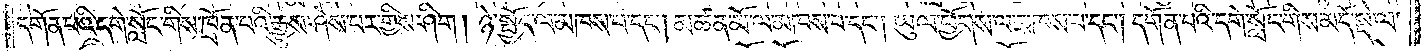དགོན་པའི་དགེ་སློང་གིས་ཁྲོན་པའི་རྒྱུས་ཤེས་པར་གྱིས་ཤིག། ཉེ་སྤྱོད་ལ་མཁས་པ་དང༌། མཚན་མོ་ལ་མཁས་པ་དང༌། ཡུལ་ཕྱོགས་ལ་མཁས་པ་དང༌། དགོན་པའི་དགེ་སློང་གིས་མདོ་སྡེ་ལ་
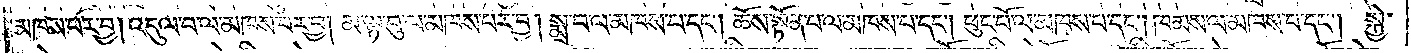མཁས་པར་བྱ། འདུལ་བ་ལ་མཁས་པར་བྱ། མ་ལྟ་བུ་ལ་མཁས་པར་བྱ། སྨྲ་བ་ལ་མཁས་པ་དང༌། ཆོས་སྟོན་པ་ལ་མཁས་པ་དང༌། ཕུང་པོ་ལ་མཁས་པ་དང༌། ཁམས་ལ་མཁས་པ་དང༌། སྐྱེ་
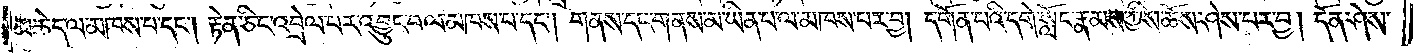མཆེད་ལ་མཁས་པ་དང༌། རྟེན་ཅིང་འབྲེལ་བར་འབྱུང་བ་ལ་མཁས་པ་དང༌། གནས་དང་གནས་མ་ཡིན་པ་ལ་མཁས་པར་བྱ། དགོན་པའི་དགེ་སློང་རྣམས་ཀྱིས་ཆོས་ཤེས་པར་བྱ། དོན་ཤེས་
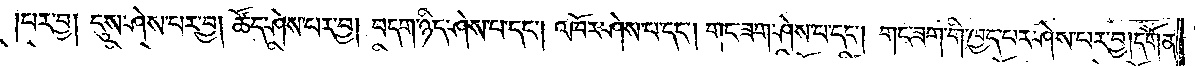པར་བྱ། དུས་ཤེས་པར་བྱ། ཚོད་ཤེས་པར་བྱ། བདག་ཉིད་ཤེས་པ་དང༌། འཁོར་ཤེས་པ་དང༌། གང་ཟག་ཤེས་པ་དང༌། གང་ཟག་གི་ཁྱད་པར་ཤེས་པར་བྱ། དགོན་
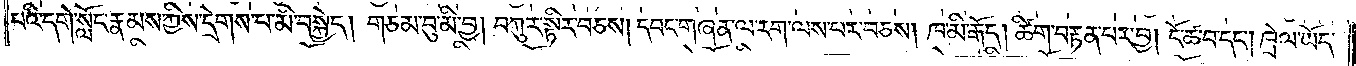པའི་དགེ་སློང་རྣམས་ཀྱིས་དྲེགས་པ་མི་བསྐྱེད། གཅམ་བུ་མི་བྱ། བཀུར་སྟིར་བཅས། དབང་གཞན་ལ་རག་ལས་པར་བཅས། ཁ་མི་རྒོད། ཚིག་བརྟན་པར་བྱ། ངོ་ཚ་བ་དང༌། ཁྲེལ་ཡོད་
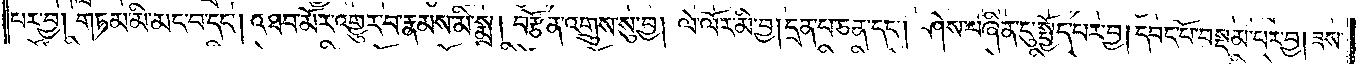པར་བྱ། གཏམ་མི་མང་བ་དང༌། འཐབ་མོར་འགྱུར་བ་རྣམས་མི་སྨྲ། བརྩོན་འགྲུས་སུ་བྱ། ལེ་ལོར་མི་བྱ། དྲན་པ་ཅན་དང༌། ཤེས་བཞིན་དུ་སྤྱོད་པར་བྱ། དབང་པོ་བསྡམ་པར་བྱ། ཟས་
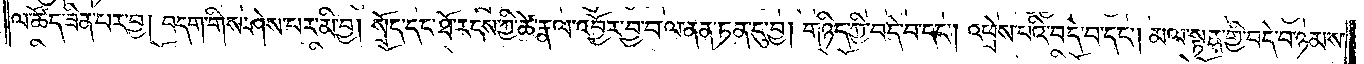ལ་ཚོད་ཟིན་པར་བྱ། བདག་གིས་ཤེས་པར་མི་བྱ། སྲོད་དང་ཐོ་རངས་ཀྱི་ཚེ་རྣལ་འབྱོར་བྱ་བ་ལ་ནན་ཏན་དུ་བྱ། གཉིད་ཀྱི་བདེ་བ་དང༌། འཕྲེས་པའི་བདེ་བ་དང༌། མལ་སྟན་གྱི་བདེ་བ་ཉམས་
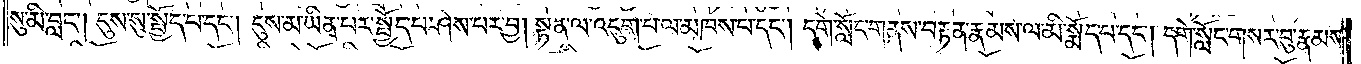སུ་མི་བླང༌། དུས་སུ་སྤྱོད་པ་དང༌། དུས་མ་ཡིན་པར་སྤྱོད་པ་ཤེས་པར་བྱ། སྟན་ལ་འདུག་པ་ལ་མཁས་པ་དང༌། དགེ་སློང་གནས་བརྟན་རྣམས་ལ་མི་སྨོད་པ་དང༌། དགེ་སློང་གསར་བུ་རྣམས་
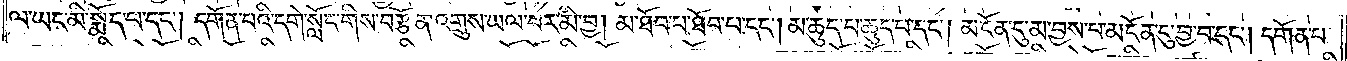ལ་ཡང་མི་སྨོད་པ་དང༌། དགོན་པའི་དགེ་སློང་གིས་བརྩོན་འགྲུས་ཡལ་བར་མི་བྱ། མ་ཐོབ་པ་ཐོབ་པ་དང༌། མ་ཆུད་པ་ཆུད་པ་དང༌། མངོན་དུ་མ་བྱས་པ་མངོན་དུ་བྱ་བ་དང༌། དགོན་པ་
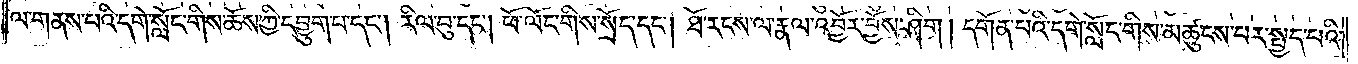ལ་གནས་པའི་དགེ་སློང་གིས་ཆོས་ཀྱི་དབྱུག་པ་དང༌། རིལ་བུ་དང༌། ཕོ་ལོང་གིས་སྲོད་དང༌། ཐོ་རངས་ལ་རྣལ་འབྱོར་བྱོས་ཤིག། དགོན་པའི་དགེ་སློང་གིས་མཚུངས་པར་སྤྱད་པའི་
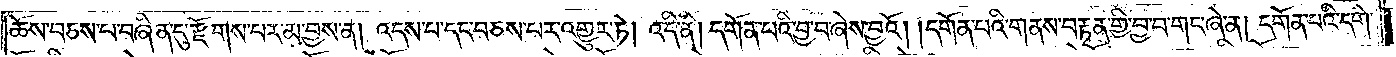ཆོས་བཅས་པ་བཞིན་དུ་རྫོགས་པར་མ་བྱས་ན། འདས་པ་དང་བཅས་པར་འགྱུར་ཏེ། འདི་ནི། དགོན་པའི་བྱ་བ་ཞེས་བྱའོ། །དགོན་པའི་གནས་བརྟན་གྱི་བྱ་བ་གང་ཞེ་ན། དགོན་པའི་དགེ་
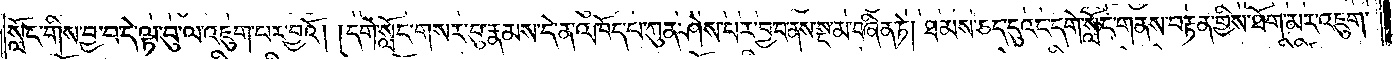སློང་གིས་བྱ་བ་དེ་ལྟ་བུ་ལ་འཇུག་པར་བྱའོ། །དགེ་སློང་གསར་བུ་རྣམས་དེ་ན་འཁོད་པ་ཀུན་ཤེས་པར་བྱ་བ་ནས་སྔ་མ་བཞིན་ཏེ། ཐམས་ཅད་དུའང་དགེ་སློང་གནས་བརྟན་གྱིས་ཐོག་མར་འཇུག་
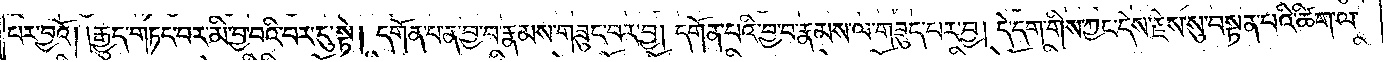པར་བྱའོ། །རྒྱུད་གཏང་བར་མི་བྱ་བའི་བར་དུ་སྟེ། དགོན་པ་ན་བྱ་བ་རྣམས་གཟུང་བར་བྱ། དགོན་པའི་བྱ་བ་རྣམས་ལ་གཟུད་པར་བྱ། དེ་དག་གིས་ཀྱང་དེས་རྗེས་སུ་བསྟན་པའི་ཚིག་ལ་
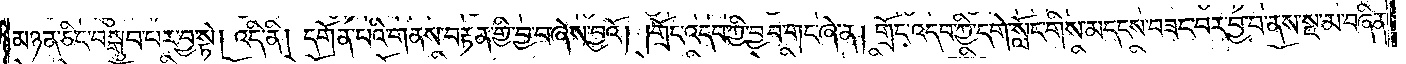མཉན་ཅིང་བསྒྲུབ་པར་བྱ་སྟེ། འདི་ནི། དགོན་པའི་གནས་བརྟན་གྱི་བྱ་བ་ཞེས་བྱའོ། །གྲོང་འདབ་ཀྱི་བྱ་བ་གང་ཞེ་ན། གྲོང་འདབ་ཀྱི་དགེ་སློང་གིས་མདངས་བཟང་བར་བྱ་བ་ནས་སྔ་མ་བཞིན་
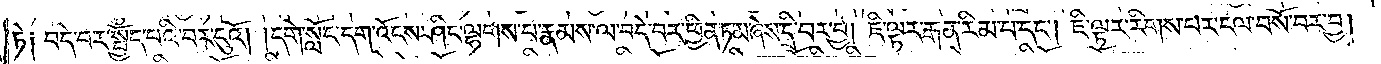ཏེ༑ བདེ་བར་སྤྱོད་པའི་བར་དུའོ། །དགེ་སློང་དག་འོངས་ཤིང་ལྷགས་པ་རྣམས་ལ་བདེ་བར་ཕྱིན་ཏམ་ཞེས་དྲི་བར་བྱ། ཇི་ལྟར་རྒན་རིམ་པ་དང༌། ཇི་ལྟར་རིགས་པར་ངལ་བསོ་བར་བྱ།
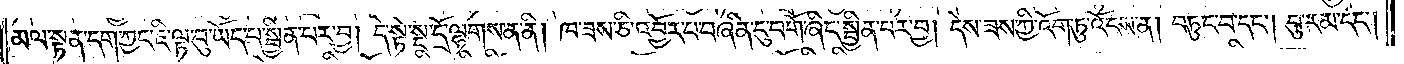མལ་སྟན་དག་ཀྱང་ཇི་ལྟ་བུ་ཡོད་པ་སྦྱིན་པར་བྱ། དེ་སྟེ་སྔ་དྲོ་ལྷགས་ན་ནི། ཁ་ཟས་ཅི་འབྱོར་པ་བཞིན་དུ་བགོ་ཞིང་སྦྱིན་པར་བྱ། དེས་ཟས་ཀྱི་འོག་ཏུ་འོངས་ན། བཏུང་བ་དང༌། བུ་རམ་དང༌།
